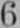6
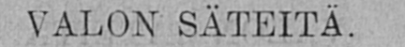VALON SÄTEITÄ.
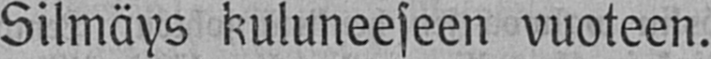Silmäys kuluneeseen vuoteen.
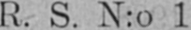R. S. N:o 1
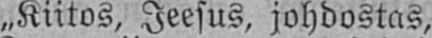„Kiitos, Jeesus, johdostas,
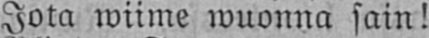Jota wiime wuonna sain!
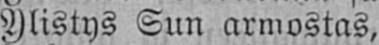Ylistys Sun armostas,
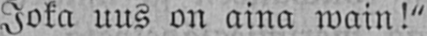Joka uus on aina wain!"
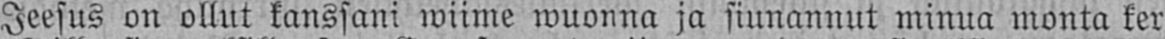Jeesus on ollut kanssani wiime wuonna ja siunannut minua monta ker-
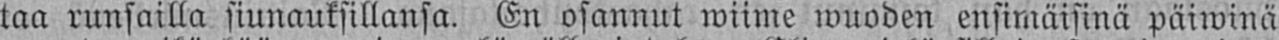taa runsailla siunauksillansa. En osannut wiime wuoden ensimäisinä päiwinä
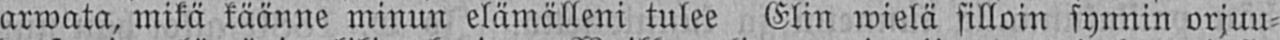arwata, mikä käänne minun elämälleni tulee Elin wielä silloin synnin orjuu-
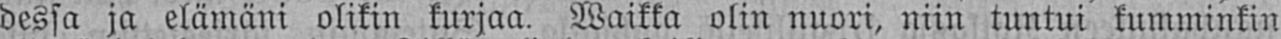dessa ja elämäni olikin kurjaa. Waikka olin nuori, niin tuntui kumminkin
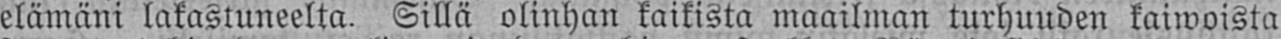elämäni lakastuneelta. Sillä olinhan kaikista maailman turhuuden kaiwoista
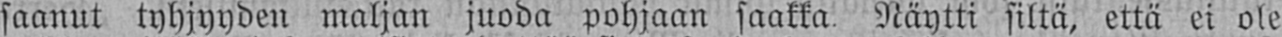saanut tyhjyyden maljan juoda pohjaan saakka Näytti siltä, että ei ole
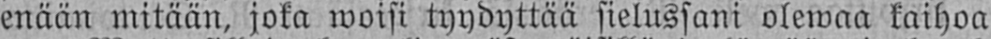enään mitään, joka woisi tyydyttää sielussani olewaa kaihoa
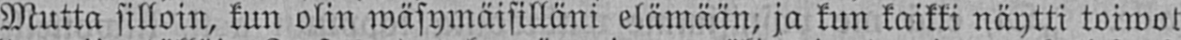Mutta silloin, kun olin wäsymäisilläni elämään, ja kun kaikki näytti toiwot-
